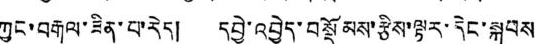ཀྱང་བརྒལ་ཟིན་པ་རེད། དབྱེ་འབྱེད་བསྡོམས་རྩིས་ལྟར་དེང་སྐབས
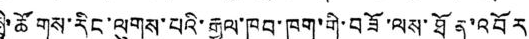སྤྱི་ཚོགས་རིང་ལུགས་པའི་རྒྱལ་ཁབ་ཁག་གི་བཟོ་ལས་ཐོན་འབོར
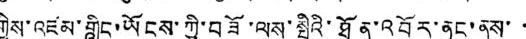གྱིས་འཛམ་གླིང་ཡོངས་ཀྱི་བཟོ་ལས་སྤྱིའི་ཐོན་འབོར་ནང་ནས་་
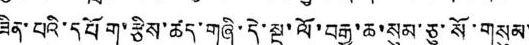ཟིན་པའི་དཔོག་རྩིས་ཚད་གཞི་དེ་སྔ་ལོ་བརྒྱ་ཆ་སུམ་ཅུ་སོ་གསུམ་
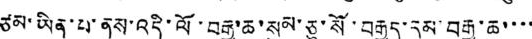ཙམ་ཡིན་པ་ནས་འདི་ལོ་བརྒྱ་ཆ་སུམ་ཅུ་སོ་བརྒྱད་དམ་བརྒྱ་ཆ་་་་
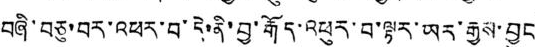བཞི་བཅུ་བར་འཕར་བ་དེ་ནི་བྱ་རྒོད་འཕུར་བ་ལྟར་ཡར་རྒྱས་བྱུང
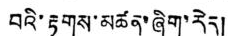བའི་རྟགས་མཚན་ཞིག་རེད།
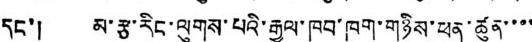དང་། མ་རྩ་རིང་ལུགས་པའི་རྒྱལ་ཁབ་ཁག་གཉིས་ཕན་ཚུན་་་་
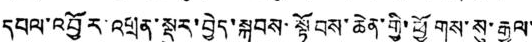དཔལ་འབྱོར་འགྲན་སྡུར་བྱེད་སྐབས་སྟོབས་ཆེན་གྱི་ཕྱོགས་སུ་རྒྱལ་
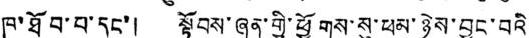ཁ་ཐོབ་པ་དང་། སྟོབས་ཞན་གྱི་ཕྱོགས་སུ་ཕམ་ཉེས་བྱུང་བའི་
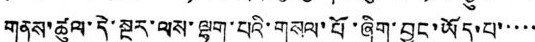གནས་ཚུལ་དེ་སྔར་ལས་ལྷག་པའི་གསལ་པོ་ཞིག་བྱུང་ཡོད་པ་་་་་
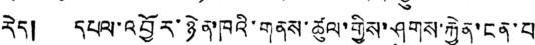རེད། དཔལ་འབྱོར་ཉེན་ཁའི་གནས་ཚུལ་གྱིས་ཤུགས་རྐྱེན་ངན་པ
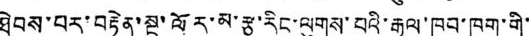ཐེབས་པར་བརྟེན་སྔ་ལོར་མ་རྩ་རིང་ལུགས་པའི་རྒྱལ་ཁབ་ཁག་གི་
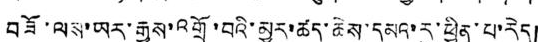བཟོ་ལས་ཡར་རྒྱས་འགྲོ་བའི་མྱུར་ཚད་ཆེས་དམའ་རུ་ཕྱིན་པ་རེད།
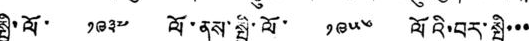སྤྱི་ལོ་ ༡༩༣༧ ལོ་ནས་སྤྱི་ལོ་ ༡༩༥༦ ལོའི་བར་སྤྱི་་་
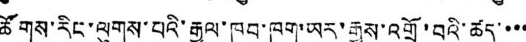ཚོགས་རིང་ལུགས་པའི་རྒྱས་ཁབ་ཁག་ཡར་རྒྱས་འགྲོ་བའི་ཚད་་་་
